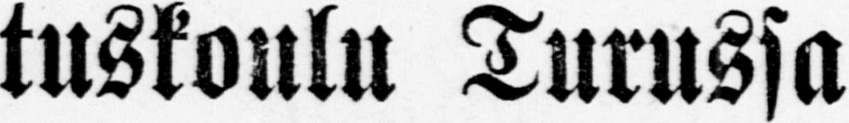tuskoulu Turussa
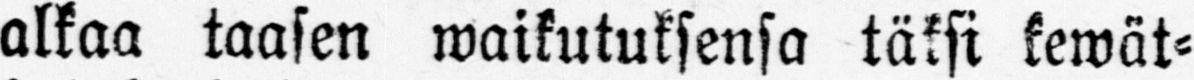alkaa taasen waikutuksensa täksi kewät-
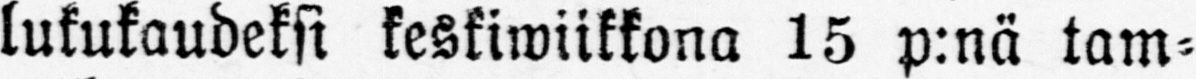lukukaudeksi keskiwiikkona 15 p:nä tam-
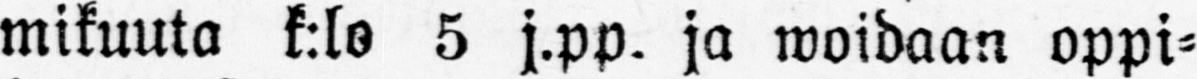mikuuta k:lo 5 j.pp. ja woidaan oppi-
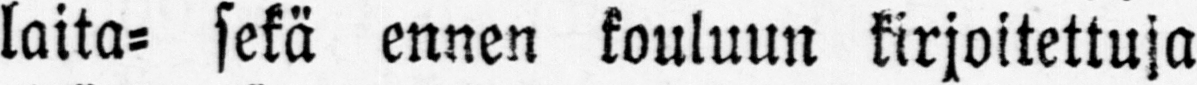laita- sekä ennen kouluun kirjoitettuja
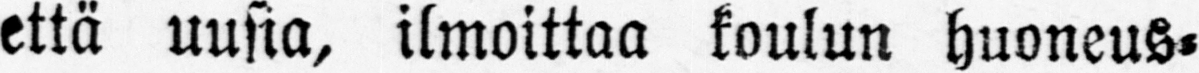että uusia, ilmoittaa koulun huoneus-
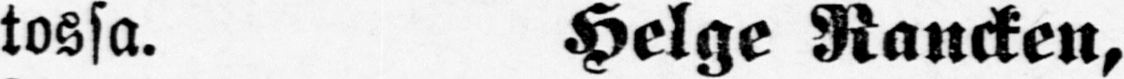tossa. Helge Rancken,
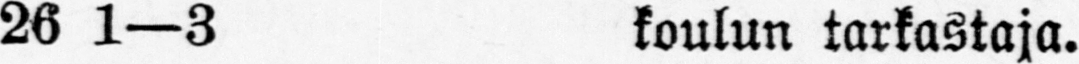26 1—3 koulun tarkastaja.
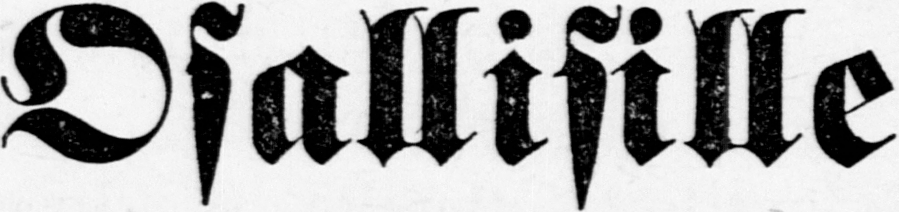Osallisille
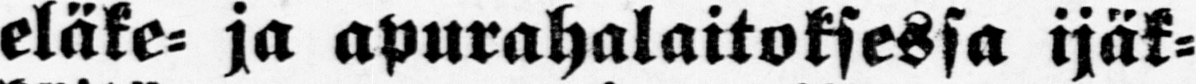eläke- ja apurahalaitoksessa ijäk-
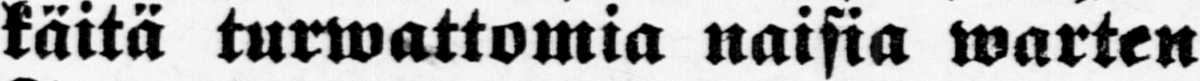käitä turwattomia naisia warten
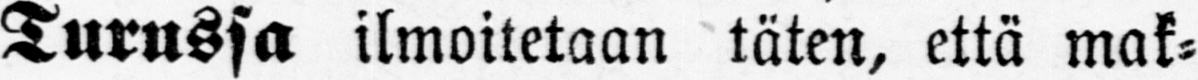Turussa ilmoitetaan täten, että mak-
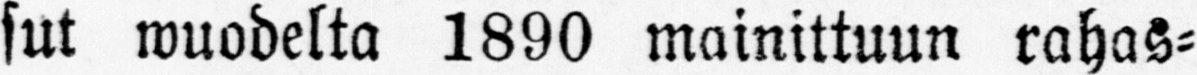sut wuodelta 1890 mainittuun rahas-
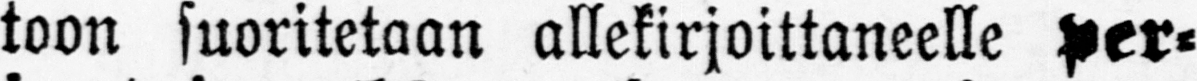toon suoritetaan allekirjoittaneelle Per-
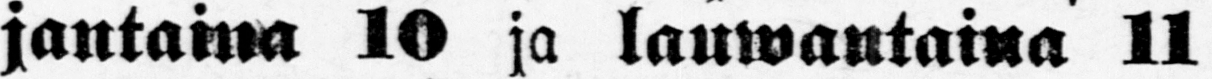jantaina 1O ja lauwantaina 11
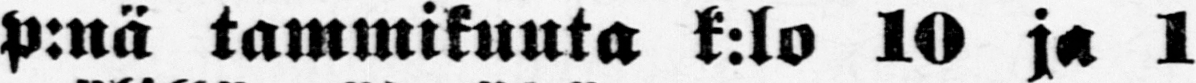p:nä tammikuuta k:lo 10 ja 1
